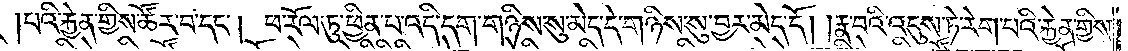པའི་རྐྱེན་གྱིས་ཚོར་བ་དང༌། ཕ་རོལ་ཏུ་ཕྱིན་པ་འདི་དག་གཉིས་སུ་མེད་དེ་གཉིས་སུ་བྱར་མེད་དོ། །རྣ་བའི་འདུས་ཏེ་རེག་པའི་རྐྱེན་གྱིས་
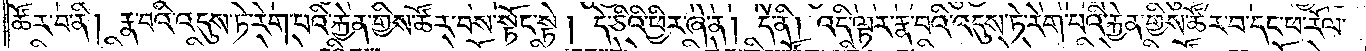ཚོར་བ་ནི། རྣ་བའི་འདུས་ཏེ་རེག་པའི་རྐྱེན་གྱིས་ཚོར་བས་སྟོང་སྟེ། དེ་ཅིའི་ཕྱིར་ཞེ་ན། དེ་ནི། འདི་ལྟར་རྣ་བའི་འདུས་ཏེ་རེག་པའི་རྐྱེན་གྱིས་ཚོར་བ་དང་ཕ་རོལ་
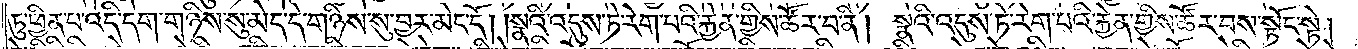ཏུ་ཕྱིན་པ་འདི་དག་གཉིས་སུ་མེད་དེ་གཉིས་སུ་བྱར་མེད་དོ། །སྣའི་འདུས་ཏེ་རེག་པའི་རྐྱེན་གྱིས་ཚོར་བ་ནི། སྣའི་འདུས་ཏེ་རེག་པའི་རྐྱེན་གྱིས་ཚོར་བས་སྟོང་སྟེ།
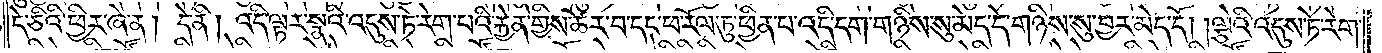དེ་ཅིའི་ཕྱིར་ཞེ་ན། དེ་ནི། འདི་ལྟར་སྣའི་འདུས་ཏེ་རེག་པའི་རྐྱེན་གྱིས་ཚོར་བ་དང་ཕ་རོལ་ཏུ་ཕྱིན་པ་འདི་དག་གཉིས་སུ་མེད་དེ་གཉིས་སུ་བྱར་མེད་དོ། །ལྕེའི་འདུས་ཏེ་རེག་
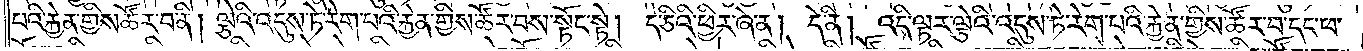པའི་རྐྱེན་གྱིས་ཚོར་བ་ནི། ལྕེའི་འདུས་ཏེ་རེག་པའི་རྐྱེན་གྱིས་ཚོར་བས་སྟོང་སྟེ། དེ་ཅིའི་ཕྱིར་ཞེ་ན། དེ་ནི། འདི་ལྟར་ལྕེའི་འདུས་ཏེ་རེག་པའི་རྐྱེན་གྱིས་ཚོར་བ་དང་ཕ་
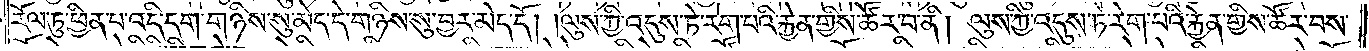རོལ་ཏུ་ཕྱིན་པ་འདི་དག་གཉིས་སུ་མེད་དེ་གཉིས་སུ་བྱར་མེད་དོ། །ལུས་ཀྱི་འདུས་ཏེ་རེག་པའི་རྐྱེན་གྱིས་ཚོར་བ་ནི། ལུས་ཀྱི་འདུས་ཏེ་རེག་པའི་རྐྱེན་གྱིས་ཚོར་བས་
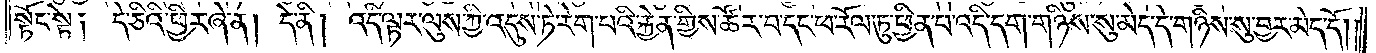སྟོང་སྟེ། དེ་ཅིའི་ཕྱིར་ཞེ་ན། དེ་ནི། འདི་ལྟར་ལུས་ཀྱི་འདུས་ཏེ་རེག་པའི་རྐྱེན་གྱིས་ཚོར་བ་དང་ཕ་རོལ་ཏུ་ཕྱིན་པ་འདི་དག་གཉིས་སུ་མེད་དེ་གཉིས་སུ་བྱར་མེད་དོ། །
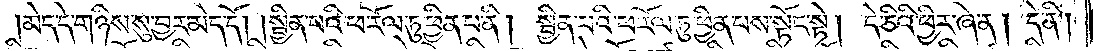མེད་དེ་གཉིས་སུ་བྱར་མེད་དོ། །སྦྱིན་པའི་ཕ་རོལ་ཏུ་ཕྱིན་པ་ནི། སྦྱིན་པའི་ཕ་རོལ་ཏུ་ཕྱིན་པས་སྟོང་སྟེ། དེ་ཅིའི་ཕྱིར་ཞེ་ན། དེ་ནི།
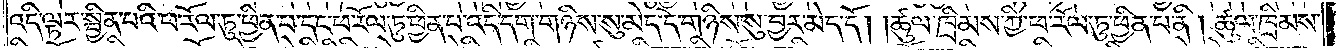འདི་ལྟར་སྦྱིན་པའི་ཕ་རོལ་ཏུ་ཕྱིན་པ་དང་ཕ་རོལ་ཏུ་ཕྱིན་པ་འདི་དག་གཉིས་སུ་མེད་དེ་གཉིས་སུ་བྱར་མེད་དོ། །ཚུལ་ཁྲིམས་ཀྱི་ཕ་རོལ་ཏུ་ཕྱིན་པ་ནི། ཚུལ་ཁྲིམས་
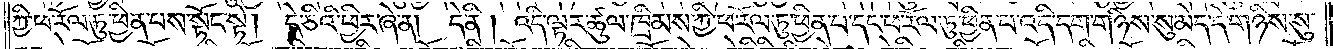ཀྱི་ཕ་རོལ་ཏུ་ཕྱིན་པས་སྟོང་སྟེ། དེ་ཅིའི་ཕྱིར་ཞེ་ན། དེ་ནི། འདི་ལྟར་ཚུལ་ཁྲིམས་ཀྱི་ཕ་རོལ་ཏུ་ཕྱིན་པ་དང་ཕ་རོལ་ཏུ་ཕྱིན་པ་འདི་དག་གཉིས་སུ་མེད་དེ་གཉིས་སུ་
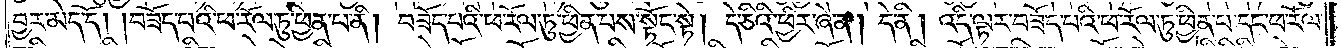བྱར་མེད་དོ། །བཟོད་པའི་ཕ་རོལ་ཏུ་ཕྱིན་པ་ནི། བཟོད་པའི་ཕ་རོལ་ཏུ་ཕྱིན་པས་སྟོང་སྟེ། དེ་ཅིའི་ཕྱིར་ཞེ་ན། དེ་ནི། འདི་ལྟར་བཟོད་པའི་ཕ་རོལ་ཏུ་ཕྱིན་པ་དང་ཕ་རོལ་
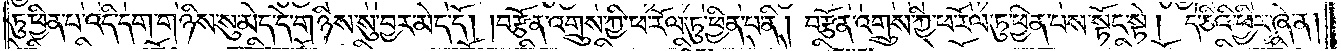ཏུ་ཕྱིན་པ་འདི་དག་གཉིས་སུ་མེད་དེ་གཉིས་སུ་བྱར་མེད་དོ། །བརྩོན་འགྲུས་ཀྱི་ཕ་རོལ་ཏུ་ཕྱིན་པ་ནི། བརྩོན་འགྲུས་ཀྱི་ཕ་རོལ་ཏུ་ཕྱིན་པས་སྟོང་སྟེ། དེ་ཅིའི་ཕྱིར་ཞེ་ན།
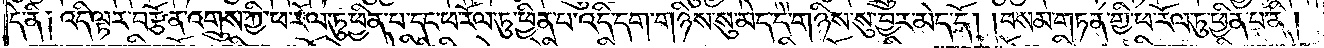དེ་ནི། འདི་ལྟར་བརྩོན་འགྲུས་ཀྱི་ཕ་རོལ་ཏུ་ཕྱིན་པ་ཕ་རོལ་ཏུ་ཕྱིན་པ་འདི་དག་གཉིས་སུ་མེད་དེ་གཉིས་སུ་བྱར་མེད་དོ། །བསམ་གཏན་གྱི་ཕ་རོལ་ཏུ་ཕྱིན་པ་ནི།
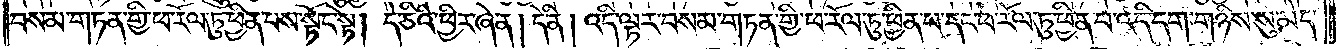བསམ་གཏན་གྱི་ཕ་རོལ་ཏུ་ཕྱིན་པས་སྟོང་སྟེ། དེ་ཅིའི་ཕྱིར་ཞེ་ན། དེ་ནི། འདི་ལྟར་བསམ་གཏན་གྱི་ཕ་རོལ་ཏུ་ཕྱིན་པ་དང་ཕ་རོལ་ཏུ་ཕྱིན་པ་འདི་དག་གཉིས་སུ་མེད་
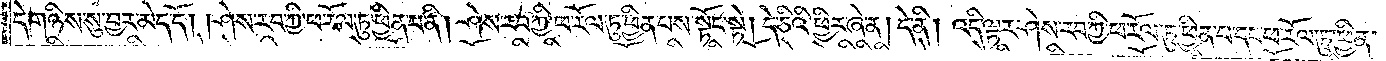དེ་གཉིས་སུ་བྱར་མེད་དོ། །ཤེས་རབ་ཀྱི་ཕ་རོལ་ཏུ་ཕྱིན་པ་ནི། ཤེས་རབ་ཀྱི་ཕ་རོལ་ཏུ་ཕྱིན་པས་སྟོང་སྟེ། དེ་ཅིའི་ཕྱིར་ཞེ་ན། དེ་ནི། འདི་ལྟར་ཤེས་རབ་ཀྱི་ཕ་རོལ་ཏུ་ཕྱིན་པ་དང་ཕ་རོལ་ཏུ་ཕྱིན་
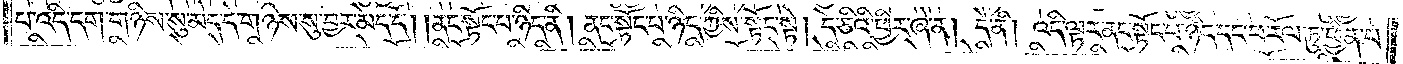པ་འདི་དག་གཉིས་སུ་མེད་དེ་གཉིས་སུ་བྱར་མེད་དེ། །ནང་སྟོང་པ་ཉིད་ནི། ནང་སྟོང་པ་ཉིད་ཀྱིས་སྟོང་སྟེ། དེ་ཅིའི་ཕྱིར་ཞེ་ན། དེ་ནི། འདི་ལྟར་ནང་སྟོང་པ་ཉིད་དང་ཕ་རོལ་ཏུ་ཕྱིན་པ་
